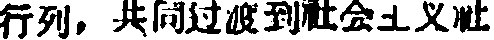行列，共同过渡到社会主义社
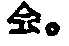会。”
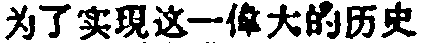为了实現这一偉大的历史
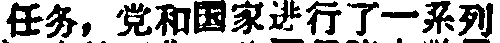任务，党和国家进行了一系列
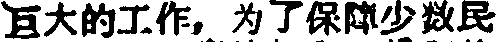巨大的工作，为了保障少数民
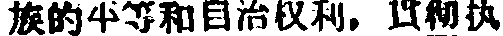族的平等和自治权利，貫彻执
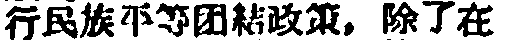行民族平等团結政策，除了在
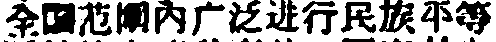全国范围內广泛进行民族平等
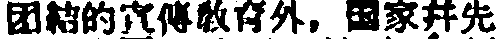困結的宣傳敎育外，国家并先
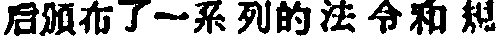后颁布了一系列的法令和规
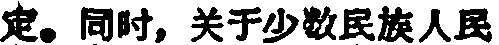定。同时，关于少数民族人民
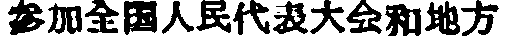参加全国人民代表大会和地方
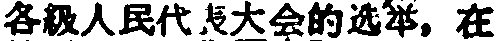各級人民代表大会的选举，在
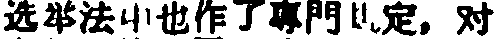选举法中也作了專門規定，对
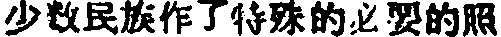少数民族作了特殊的必要的照
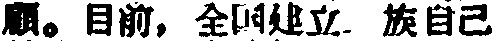顧。目前，全国建立各族自己
